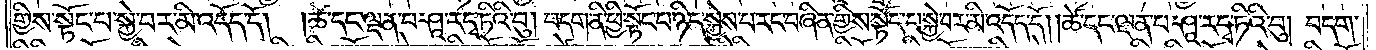གྱིས་སྟོང་པ་སྐྱེ་བར་མི་འདོད་དོ། །ཚེ་དང་ལྡན་པ་ཤཱ་ར་དྭ་ཏིའི་བུ། བདག་ནི་ཕྱི་སྟོང་པ་ཉིད་སྐྱེས་པ་རང་བཞིན་གྱིས་སྟོང་པ་སྐྱེ་བར་མི་འདོད་དོ། །ཚེ་དང་ལྡན་པ་ཤཱ་ར་དྭ་ཏིའི་བུ། བདག་
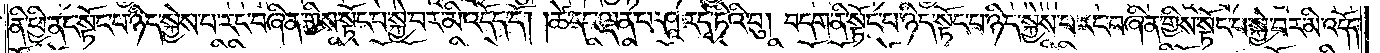ནི་ཕྱི་ནང་སྟོང་པ་ཉིད་སྐྱེས་པ་རང་བཞིན་གྱིས་སྟོང་པ་སྐྱེ་བར་མི་འདོད་དོ། །ཚེ་དང་ལྡན་པ་ཤཱ་ར་དྭ་ཏིའི་བུ། བདག་ནི་སྟོང་པ་ཉིད་སྟོང་པ་ཉིད་སྐྱེས་པ་རང་བཞིན་གྱིས་སྟོང་པ་སྐྱེ་བར་མི་འདོད་
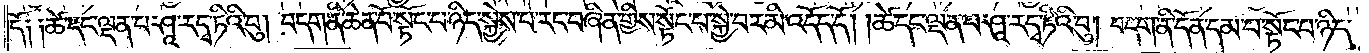དོ༏ ༏ཚེ་དང་ལྡན་པ་ཤཱ་ར་དྭ་ཏིའི་བུ། བདག་ནི་ཆེན་པོ་སྟོང་པ་ཉིད་སྐྱེས་པ་རང་བཞིན་གྱིས་སྟོང་པ་སྐྱེ་བར་མི་འདོད་དོ། །ཚེ་དང་ལྡན་པ་ཤཱ་ར་དྭ་ཏིའི་བུ། བདག་ནི་དོན་དམ་པ་སྟོང་པ་ཉིད་
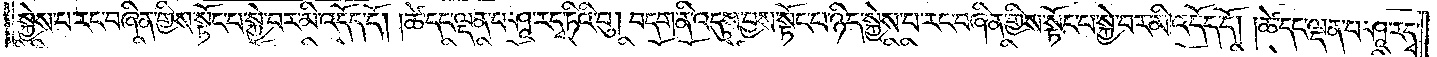སྐྱེས་པ་རང་བཞིན་གྱིས་སྟོང་པ་སྐྱེ་བར་མི་འདོད་དོ། །ཚེ་དང་ལྡན་པ་ཤཱ་ར་དྭ་ཏིའི་བུ། བདག་ནི་འདུས་བྱས་སྟོང་པ་ཉིད་སྐྱེས་པ་རང་བཞིན་གྱིས་སྟོང་པ་སྐྱེ་བར་མི་འདོད་དོ། །ཚེ་དང་ལྡན་པ་ཤཱ་ར་དྭ་
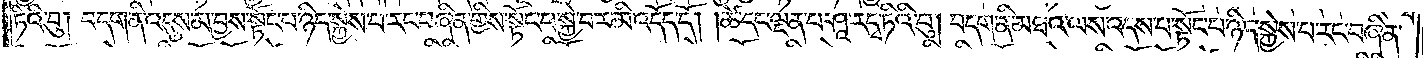ཏིའི་བུ། བདག་ནི་འདུས་མ་བྱས་སྟོང་པ་ཉིད་སྐྱེས་པ་རང་བཞིན་གྱིས་སྟོང་པ་སྐྱེ་བར་མི་འདོད་དོ། །ཚེ་དང་ལྡན་པ་ཤཱ་ར་དྭ་ཏིའི་བུ། བདག་ནི་མཐའ་ལས་འདས་པ་སྟོང་པ་ཉིད་སྐྱེས་པ་རང་བཞིན་
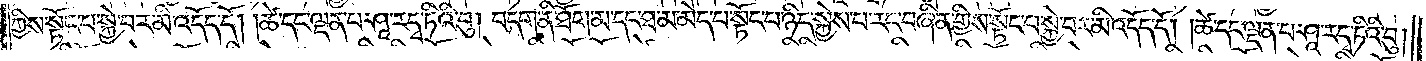གྱིས་སྟོང་པ་སྐྱེ་བར་མི་འདོད་དོ། །ཚེ་དང་ལྡན་པ་ཤཱ་ར་དྭ་ཏིའི་བུ། བདག་ནི་ཐོག་མ་དང་ཐ་མ་མེད་པ་སྟོང་པ་ཉིད་སྐྱེས་པ་རང་བཞིན་གྱིས་སྟོང་པ་སྐྱེ་བར་མི་འདོད་དོ། །ཚེ་དང་ལྡན་པ་ཤཱ་ར་དྭ་ཏིའི་བུ།
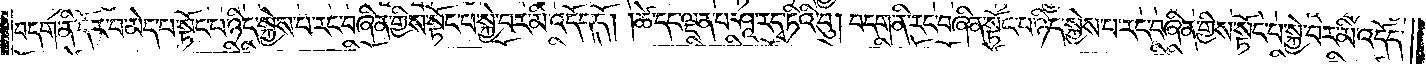བདག་ནི་དོར་བ་མེད་པ་སྟོང་པ་ཉིད་སྐྱེས་པ་རང་བཞིན་གྱིས་སྟོང་པ་སྐྱེ་བར་མི་འདོད་དོ། །ཚེ་དང་ལྡན་པ་ཤཱ་ར་དྭ་ཏིའི་བུ། བདག་ནི་རང་བཞིན་སྟོང་པ་ཉིད་སྐྱེས་པ་རང་བཞིན་གྱིས་སྟོང་པ་སྐྱེ་བར་མི་འདོད་
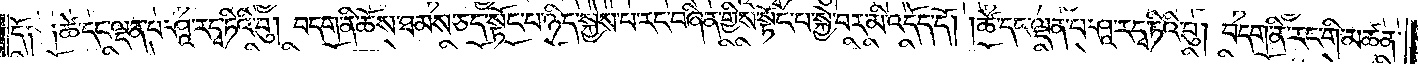དོ༏ ༏ཚེ་དང་ལྡན་པ་ཤཱ་ར་དྭ་ཏིའི་བུ། བདག་ནི་ཆོས་ཐམས་ཅད་སྟོང་པ་ཉིད་སྐྱེས་པ་རང་བཞིན་གྱིས་སྟོང་པ་སྐྱེ་བར་མི་འདོད་དོ། །ཚེ་དང་ལྡན་པ་ཤཱ་ར་དྭ་ཏིའི་བུ། བདག་ནི་རང་གི་མཚན་
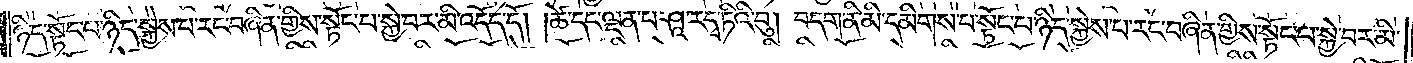ཉིད་སྟོང་པ་ཉིད་སྐྱེས་པ་རང་བཞིན་གྱིས་སྟོང་པ་སྐྱེ་བར་མི་འདོད་དོ། །ཚེ་དང་ལྡན་པ་ཤཱ་ར་དྭ་ཏིའི་བུ། བདག་ནི་མི་དམིགས་པ་སྟོང་པ་ཉིད་སྐྱེས་པ་རང་བཞིན་གྱིས་སྟོང་པ་སྐྱེ་བར་མི་
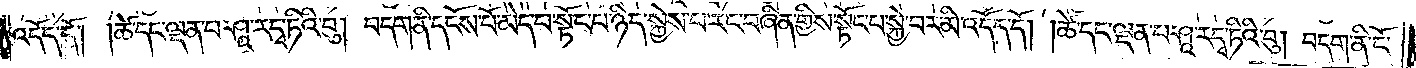འདོད་དོ། །ཚེ་དང་ལྡན་པ་ཤཱ་ར་དྭ་ཏིའི་བུ། བདག་ནི་དངོས་པོ་མེད་པ་སྟོང་པ་ཉིད་སྐྱེས་པ་རང་བཞིན་གྱིས་སྟོང་པ་སྐྱེ་བར་མི་འདོད་དོ། །ཚེ་དང་ལྡན་པ་ཤཱ་ར་དྭ་ཏིའི་བུ། བདག་ནི་ངོ་
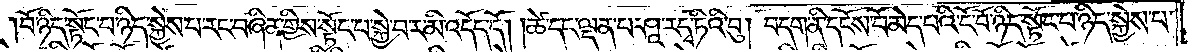བོ་ཉིད་སྟོང་པ་ཉིད་སྐྱེས་པ་རང་བཞིན་གྱིས་སྟོང་པ་སྐྱེས་བར་མི་འདོད་དོ། །ཚེ་དང་ལྡན་པ་ཤཱ་ར་དྭ་ཏིའི་བུ། བདག་ནི་དངོས་པོ་མེད་པའི་ངོ་བོ་ཉིད་སྟོང་པ་ཉིད་སྐྱེད་པ་
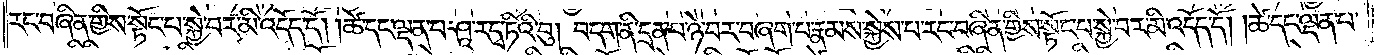རང་བཞིན་གྱིས་སྟོང་པ་སྐྱེ་བར་མའི་འདོད་དོ། །ཚེ་དང་ལྡན་པ་ཤཱ་ར་དྭ་ཏིའི་བུ། བདག་ནི་དྲན་པ་ཉེ་བར་བཞག་པ་རྣམས་སྐྱེས་པ་རང་བཞིན་གྱིས་སྟོང་པ་སྐྱེ་བར་མི་འདོད་དོ། །ཚེ་དང་ལྡན་པ་
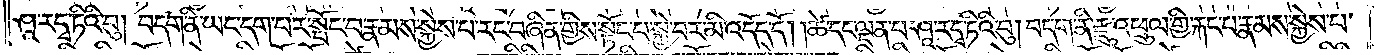ཤཱ་ར་དྭ་ཏིའི་བུ། བདག་ནི་ཡང་དག་པར་སྤོང་བ་རྣམས་སྐྱེས་པ་རང་བཞིན་གྱིས་སྟོང་པ་སྐྱེ་བར་མི་འདོད་དོ། །ཚེ་དང་ལྡན་པ་ཤཱ་ར་དྭ་ཏིའི་བུ། བདག་ནི་རྫུ་འཕྲུལ་གྱི་རྐང་པ་རྣམས་སྐྱེས་པ་
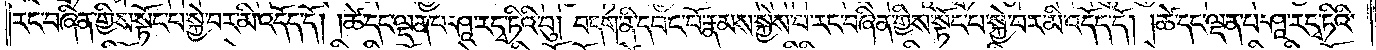རང་བཞིན་གྱིས་སྟོང་པ་སྐྱེ་བར་མི་འདོད་དོ། །ཚེ་དང་ལྡན་པ་ཤཱ་ར་དྭ་ཏིའི་བུ། བདག་ནི་དབང་པོ་རྣམས་སྐྱེས་པ་རང་བཞིན་གྱི་སྟོང་པ་སྐྱེ་བར་མི་འདོད་དོ། །ཚེ་དང་ལྡན་པ་ཤཱ་ར་དྭ་ཏིའི་
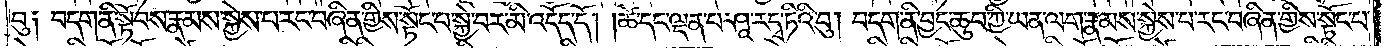བུ༏ བདག་ནི་སྟོབས་རྣམས་སྐྱེས་པ་རང་བཞིན་གྱིས་སྟོང་པ་སྐྱེ་བར་མི་འདོད་དོ། །ཚེ་དང་ལྡན་པ་ཤཱ་ར་དྭ་ཏིའི་བུ། བདག་ནི་བྱང་ཆུབ་ཀྱི་ཡན་ལག་རྣམས་སྐྱེས་པ་རང་བཞིན་གྱིས་སྟོང་པ་
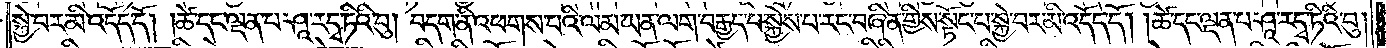སྐྱེ་བར་མི་འདོད་དོ། །ཚེ་དང་ལྡན་པ་ཤཱ་ར་དྭ་ཏིའི་བུ། བདག་ནི་འཕགས་པའི་ལམ་ཡན་ལག་བརྒྱད་པ་སྐྱེས་པ་རང་བཞིན་གྱིས་སྟོང་པ་སྐྱེ་བར་མི་འདོད་དོ། །ཚེ་དང་ལྡན་པ་ཤཱ་ར་དྭ་ཏིའི་བུ།
